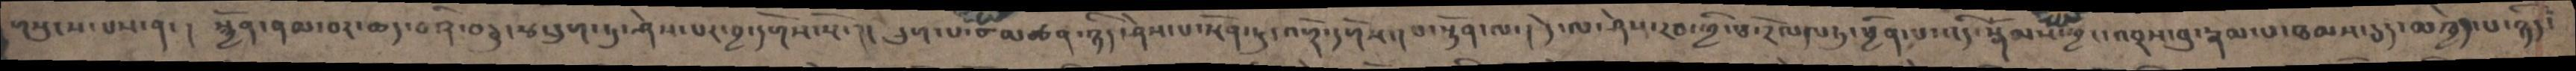གསུངས་པས་ན་། སྐྱོན་ནམ་བར་ཆད་བཞི་བཅུ་རྩ་དྲུག་ཏུ་ཤེས་པར་བྱ་དགོས་སོ་།། དྲུག་པ་མཚན་ཉིད་ཤེས་པ་སྔོན་ཏུ་འགྲོ་དགོས་།བ་སྟོན་ལ་། དེ་ལ་ཤེས་རབ་ཀྱི་ཕ་རོལད་ཏུ་ཕྱིན་པ་འདི་སྒོམས་ཕྱང་འབྲས་བུ་རྣམ་པཐམས་ཅད་མཁྱེན་པ་ཉིད་
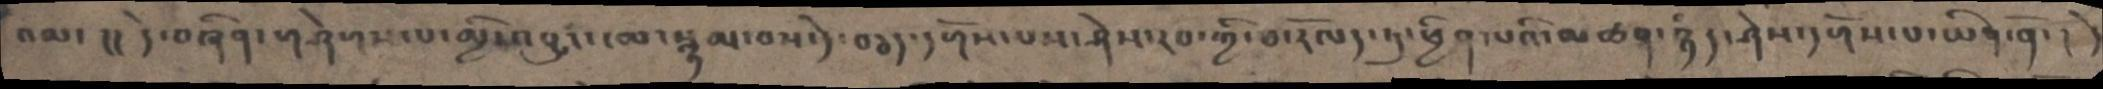འམ་ །། དེ་བཞིན་གཤེགས་པ་མྱི་འབྱུང་ངམ་སྙམ་བས་དེ་བཅད་དགོས་པས་ཤེས་རབ་ཀྱི་ཕ་རོལད་ཏུ་ཕྱིན་པའི་མཚན་ཉིད་ཤེས་དགོས་པ་ཡིན་ནོ་ ། དེ
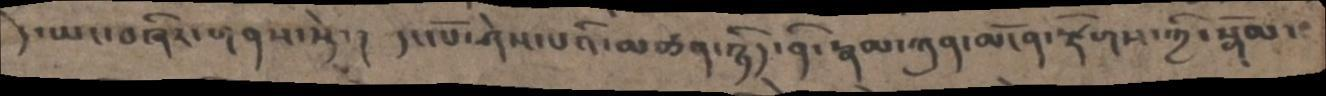དེ་ཡང་བཞིར་གནས་སྟེ་ ། དང་པོ་ཤེས་པའི་མཚན་ཉིད་ནི་རྣམ་ཀུན་མངོན་རྫོགས་ཀྱི་སྒོམ་
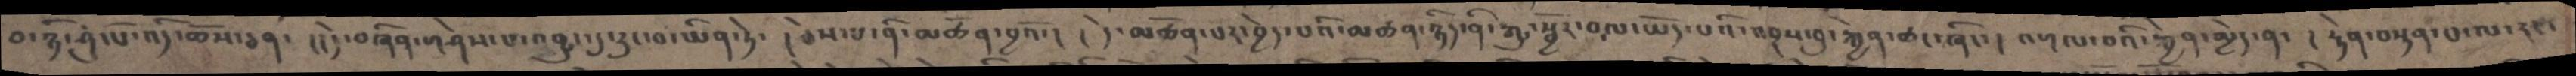བ་ཉི་ཤུ་པོ་འདི་ཆོས་ཅན་  །།དེ་བཞིན་གཤེགས་པ་འབྱུང་དུ་རུང་བ་ཡིན་ཏེ་  །ཅེས་པ་ནི་མཚོན་བྱའོ་། །དེ་མཚོན་པར་བྱེད་པའི་མཚན་ཉིད་ནི་རྒྱུ་སྦྱོར་བ་ལ་ཡོད་པའི་འབྲས་བུ་རྐྱེན་ཚང་ཞིང་།   འགལ་བའི་རྐྱེན་མྱེད་ན་  ། རྟེན་བསྟན་པ་ལ་རང་
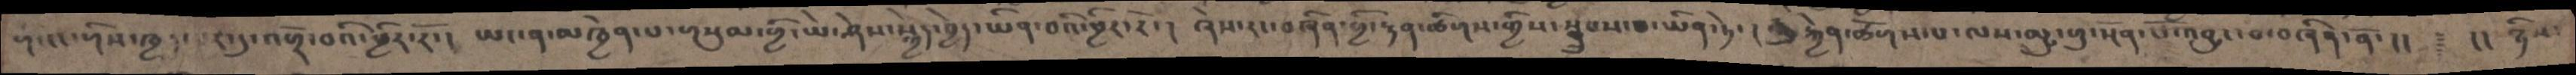གི་ངང་གིས་ཁྱད་པར་དུ་འགྲོ་བའི་ཕྱིར་རོ་། ཡང་ན་མཁྱེན་པ་གསུམ་གྱི་ཡེ་ཤེས་སྐྱེད་བྱེད་ཡིན་བའི་ཕྱིར་རོ་། ཞེས་རང་བཞིན་གྱི་རྟན་ཚིགས་གྱིས་སྒྲུབས་པ་ཡིན་ཏེ་། རྒྱུ་རྐྱེན་ཚོགས་པ་ལས་མྱུ་གུ་སྔོན་པོ་འབྱུང་བ་བཞིན་ནོ་།།   ༈   །། ཉིས་
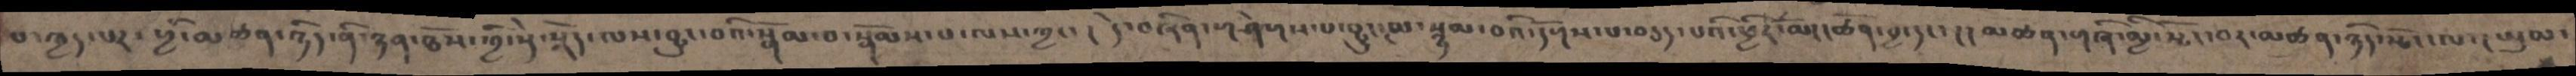བ་ཁྱད་པར་གྱི་མཚན་ཉིད་ནི་ཉན་ཐོས་གྱི་སྡེ་སྣོད་ལས་བྱུང་བའི་སྒོམ་བ་སྒོམས་པ་ལས་ཀྱང་། དེ་བཞིན་གཤེགས་པ་བྱུང་ངམ་སྙམ་བའི་དོགས་པ་བཅད་པའི་ཕྱིར་མོ།།ཚོན་བྱ་དང་།། མཚན་གཞི་མྱི་སྤོང་བར་མཚན་ཉིད་སྤོང་ལ་། ཡུམ་
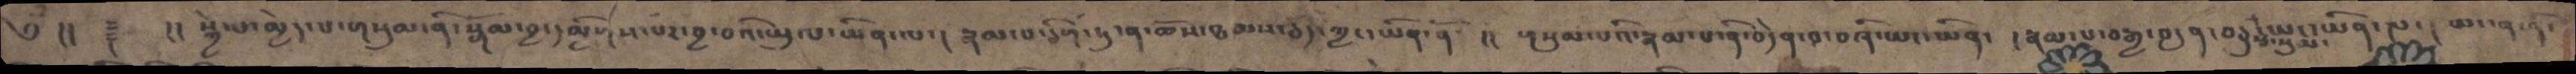༄ྃ །། ༈ །།སྐྱེ་པ་མྱེད་པ་གསུམ་ནི་སྒོམ་བྱ་དམྱིགས་པར་བྱ་བའི་ཡུལ་ཡིན་ལ་། རྣམ་པ་ཅིག་ཏུ་ན་ཆོས་ཐམས་ཅད་ཀྱང་ཡིན་ནོ  །། གསུམ་པའི་རྣམ་པ་ནི་བདེན་བ་བཞི་ཡང་ཡིན་  །རྣམ་པ་བརྒྱ་བདུན་བཅུ་རྩ་གསུམ་ཡང་ཡིན་ལ་ ། ཡང་ན་ནི་
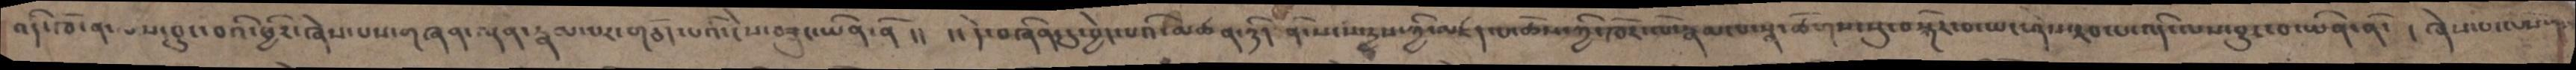འདི་ཁོ་ན་ལས་བྱུང་བའི་ཕྱིར་ཞེས་པས་གཞན་ལྡན་རྣམ་པར་གཅོད་པའི་ངེས་བཟུང་ཡིན་ནོ།། །།དེ་བཞིན་དུ་བྱེད་པའི་མཚན་ཉིད་ནི་སངས་རྒྱས་ཀྱི་མཛད་པ་ཆོས་ཀྱི་ཁོར་ལོ་རྣམ་པ་སྣ་ཚོགས་སུ་བསྐོར་བ་ཡང་ཤེས་རབ་པ་འདི་ལས་བྱུང་བ་ཡིན་ནོ་། །ཞེས་པ་ལས་
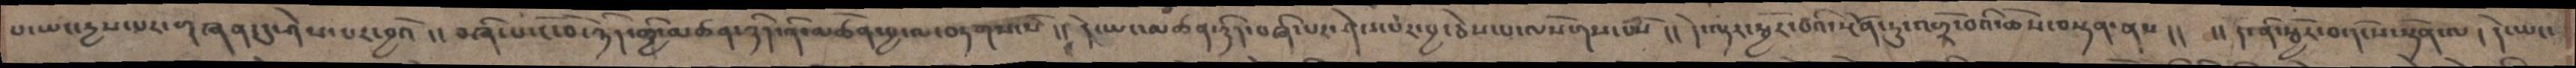པ་ཡང་དྱས་པར་གཞན་དུ་ཤེས་པར་བྱའོ །། བཞི་པ་ངོ་བོ་ཉིད་ཀྱི་མཚན་ཉིད་ནི་མཚོན་བྱ་ལ་བཏགས་སོ །། དེ་ཡང་མཚན་ཉིད་བཞི་པར་ཤེས་པར་བྱ་ཅེས་པ་ལསོགས་པསོ །། དེ་ལྟར་སྦྱོར་བའི་སྔོན་ཏུ་འགྲོ་བའི་ཆོས་བསྟན་ནས །།  །།ད་ནི་སྦྱོར་བ་དངོས་སྟོན་ལ། དེ་ཡང་
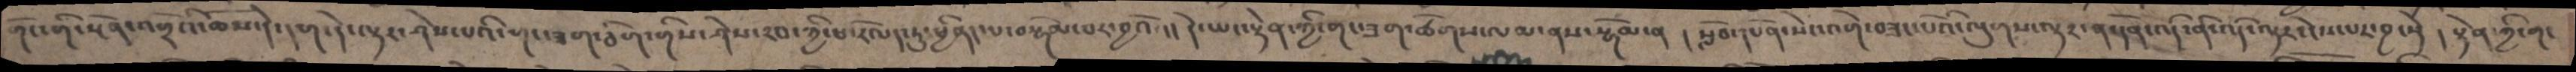གོང་གི་སྔོན་འགྲོའི་ཆོས་དེ་དག་དེ་ལྟར་ཤེས་པའི་གང་ཟག་ཅིག་གིས་ཤེས་རབ་ཀྱི་ཕ་རོལད་ཏུ་ཕྱིནད་པ་བསྒོམ་བར་བྱའོ་།། དེ་ཡང་རྟེན་གྱི་གང་ཟག་ཚོགས་ལམ་ནས་སྒོམ་ན ། སློབ་དཔོན་སེང་འགེ་བཟང་པོའི་ལུགས་ལྟར་ན་དོན་འདི་ནི་འདི་ལྟར་ངེས་པར་བྱ་སྟེ ། རྟེན་གྱི་གང
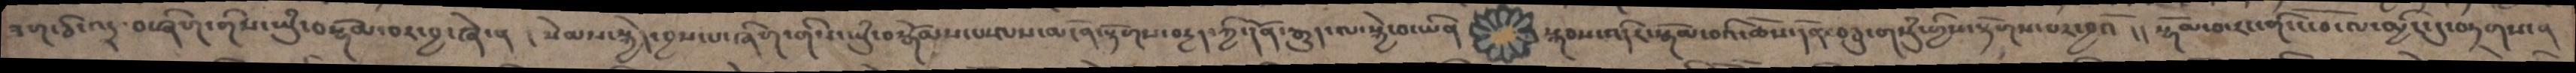ཟག་ཅི་འདྲ་བ་ཞིག་གིས་ཡུཾ་བསྒོམ་བར་བྱ་ཞེ་ན ། སེམས་སྐྱེད་བྱས་པ་ཞིག་གིས་ཡུཾ་བསྒོམས་པ་ལས་མངོན་རྟོགས་བདྱད་ཀྱི་དོན་རྒྱུད་ལ་སྐྱེ་བ་ཡིན སྐབས་འདིར་སྒོམ་བའི་ཆོས་དོན་བཅུ་གསུཾ་གྱིས་རྟོགས་པར་བྱའོ །། སྒོམ་བ་རང་གི་ངོ་བོ་ལ་མྱིང་དུ་བཏགས་ན
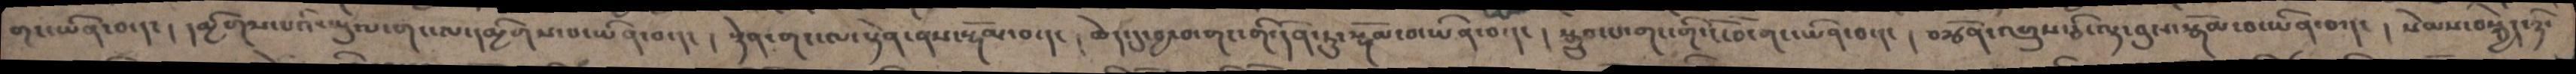གང་ཡིན་བ་དང། དམྱིགས་པའི་ཡུལ་གང་ལ་དམྱིགས་པ་ཡིན་བ་དང། རྟེན་གང་ལ་རྟེན་ནས་སྒོམ་བ་དང །ཆེད་དུ་བྱ་བ་གང་གི་དོན་ཏུ་སྒོམ་བ་ཡིན་བ་དང ། སྒྲུབ་པ་གང་གི་ངོ་བོ་གང་ཡིན་བ་དང ། བརྩོན་འགྲུས་ཅི་ལྟ་བུས་སྒོམ་བ་ཡིན་བ་དང ། སེམས་བསྐྱེད་ཉི་
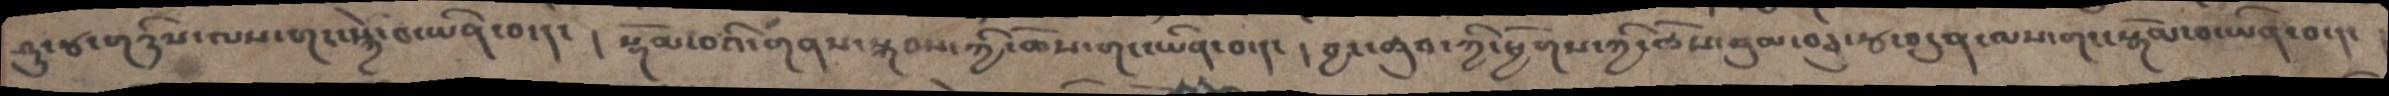ཤུ་རྩ་གཉིས་ལས་གང་སྐྱེ་བ་ཡིན་བ་དང ། སྒོམ་བའི་གནས་སྐབས་ཀྱི་ཆོས་གང་ཡིན་བ་དང ། བྱང་ཆུབ་ཀྱི་ཕྱོགས་ཀྱི་ཆོས་སུམ་བཅུ་རྩ་བདུན་ལས་གང་སྒོམ་བ་ཡིན་བ་དང །
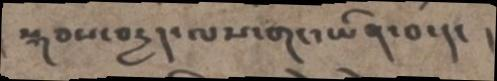སྐབས་བདྱད་ལས་གང་ཡིན་བ་དང །
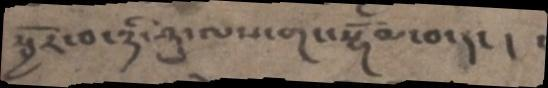སྦྱོར་བ་ཉི་ཤུ་ལས་གང་སྒོམ་བ་དང །
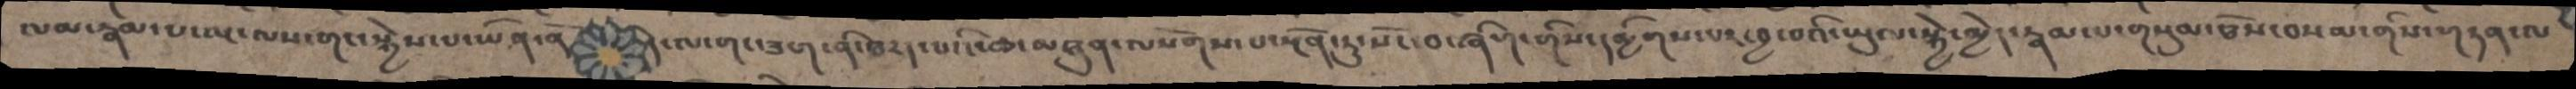ལམ་རྣམ་པ་ལྔ་ལས་གང་སྐྱེས་པ་ཡིན་ནོ  དེ་ལ་གང་ཟག་ནི་ཐརད་པའི་ཆ་མཐུན་ལསོགས་པ་སྔོན་ཏུ་སོང་བ་ཞིག་གིས་དམྱིགས་པར་བྱ་བའི་ཡུལ་སྐྱེ་མྱེད་རྣམ་པ་གསུམ་ཐོས་བསམ་གིས་གཏན་ལ
